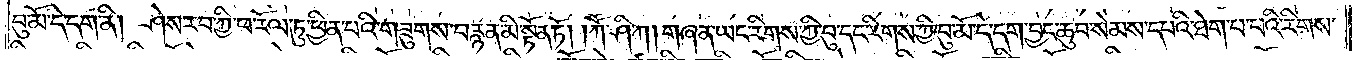བུ་མོ་དེ་དག་ནི། ཤེས་རབ་ཀྱི་ཕ་རོལ་ཏུ་ཕྱིན་པའི་གཟུགས་བརྙན་མི་སྟོན་ཏོ། །ཀཽ་ཤི་ཀ། གཞན་ཡང་རིགས་ཀྱི་བུ་དང་རིགས་ཀྱི་བུ་མོ་དེ་དག་བྱང་ཆུབ་སེམས་དཔའི་ཐེག་པ་པའི་རིགས་
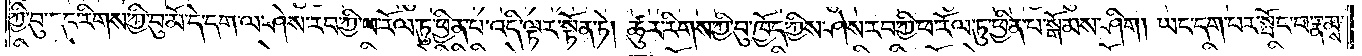ཀྱི་བུ་དང་རིགས་ཀྱི་བུ་མོ་དེ་དག་ལ་ཤེས་རབ་ཀྱི་ཕ་རོལ་ཏུ་ཕྱིན་པ་འདི་ལྟར་སྟོན་ཏེ། ཚུར་རིགས་ཀྱི་བུ་ཁྱོད་ཀྱིས་ཤེས་རབ་ཀྱི་ཕ་རོལ་ཏུ་ཕྱིན་པ་སྒོམས་ཤིག །ཡང་དག་པར་སྤོང་བ་རྣམས་
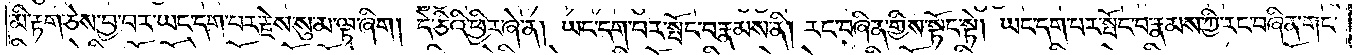མི་རྟག་ཅེས་བྱ་བར་ཡང་དག་པར་རྗེས་སུ་མ་ལྟ་ཞིག །དེ་ཅིའི་ཕྱིར་ཞེ་ན། ཡང་དག་པར་སྤོང་བ་རྣམས་ནི། རང་བཞིན་གྱིས་སྟོང་སྟེ། ཡང་དག་པར་སྤོང་བ་རྣམས་ཀྱི་རང་བཞིན་གང་
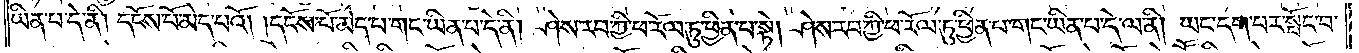ཡིན་པ་དེ་ནི། དངོས་པོ་མེད་པའོ། །དངོས་པོ་མེད་པ་གང་ཡིན་པ་དེ་ནི། ཤེས་རབ་ཀྱི་ཕ་རོལ་ཏུ་ཕྱིན་པ་སྟེ། ཤེས་རབ་ཀྱི་ཕ་རོལ་ཏུ་ཕྱིན་པ་གང་ཡིན་པ་དེ་ལ་ནི། ཡང་དག་པར་སྤོང་བ་
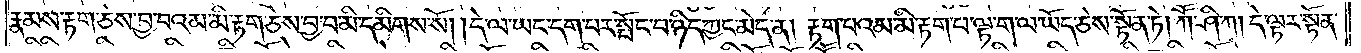རྣམས་རྟག་ཅེས་བྱ་བའམ་མི་རྟག་ཅེས་བྱ་བ་མི་དམིགས་སོ། །དེ་ལ་ཡང་དག་པར་སྤོང་བ་ཉིད་ཀྱང་མེད་ན། རྟག་པའམ་མི་རྟག་པ་ལྟ་ག་ལ་ཡོད་ཅེས་སྟོན་ཏེ། ཀཽ་ཤི་ཀ། དེ་ལྟར་སྟོན་
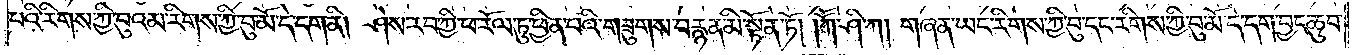པའི་རིགས་ཀྱི་བུ་འམ་རིགས་ཀྱི་བུ་མོ་དེ་དག་ནི། ཤེས་རབ་ཀྱི་ཕ་རོལ་ཏུ་ཕྱིན་པའི་གཟུགས་བརྙན་མི་སྟོན་ཏོ། །ཀཽ་ཤི་ཀ། གཞན་ཡང་རིགས་ཀྱི་བུ་དང་རིགས་ཀྱི་བུ་མོ་དེ་དག་བྱང་ཆུབ་
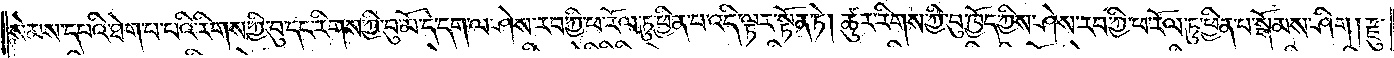སེམས་དཔའི་ཐེག་པ་པའི་རིགས་ཀྱི་བུ་དང་རིགས་ཀྱི་བུ་མོ་དེ་དག་ལ་ཤེས་རབ་ཀྱི་ཕ་རོལ་ཏུ་ཕྱིན་པ་འདི་ལྟར་སྟོན་ཏེ། ཚུར་རིགས་ཀྱི་བུ་ཁྱོད་ཀྱིས་ཤེས་རབ་ཀྱི་ཕ་རོལ་ཏུ་ཕྱིན་པ་སྒོམས་ཤིག །རྫུ་
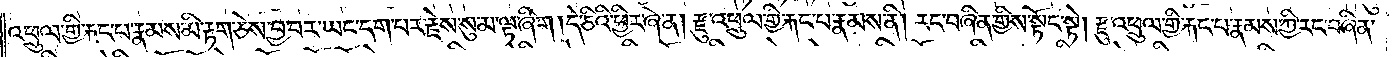འཕྲུལ་གྱི་རྐང་པ་རྣམས་མི་རྟག་ཅེས་བྱ་བར་ཡང་དག་པར་རྗེས་སུ་མ་ལྟ་ཞིག །དེ་ཅིའི་ཕྱིར་ཞེ་ན། རྫུ་འཕྲུལ་གྱི་རྐང་པ་རྣམས་ནི། རང་བཞིན་གྱིས་སྟོང་སྟེ། རྫུ་འཕྲུལ་གྱི་རྐང་པ་རྣམས་ཀྱི་རང་བཞིན་
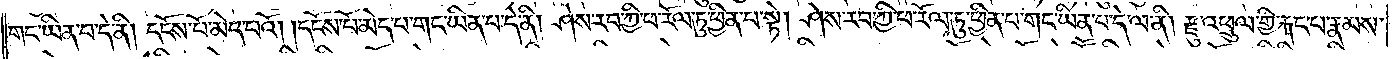གང་ཡིན་པ་དེ་ནི། དངོས་པོ་མེད་པའོ། །དངོས་པོ་མེད་པ་གང་ཡིན་པ་དེ་ནི། ཤེས་རབ་ཀྱི་ཕ་རོལ་ཏུ་ཕྱིན་པ་སྟེ། ཤེས་རབ་ཀྱི་ཕ་རོལ་ཏུ་ཕྱིན་པ་ཡང་ཡིན་པ་དེ་ལ་ནི། རྫུ་འཕྲུལ་གྱི་རྐང་པ་རྣམས་
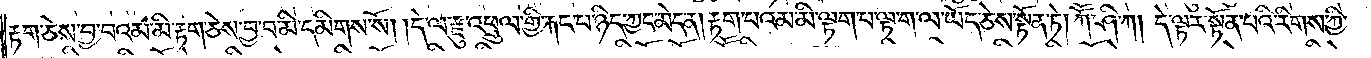རྟག་ཅེས་བྱ་བའམ་མི་རྟག་ཅེས་བྱ་བ་མི་དམིགས་སོ། །དེ་ལ་རྫུ་འཕྲུལ་གྱི་རྐང་པ་ཉིད་ཀྱང་མེད་ན། རྟག་པའམ་མི་རྟག་པ་ལྟ་ག་ལ་ཡོད་ཅེས་སྟོན་ཏེ། ཀཽ་ཤི་ཀ། དེ་ལྟར་སྟོན་པའི་རིགས་ཀྱི་
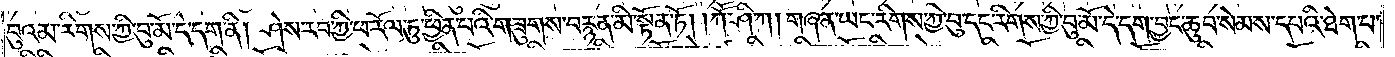བུའམ་རིགས་ཀྱི་བུ་མོ་དེ་དག་ནི། ཤེས་རབ་ཀྱི་ཕ་རོལ་ཏུ་ཕྱིན་པའོ་གཟུགས་བརྙན་མི་སྟོན་ཏོ། །ཀཽ་ཤི་ཀ། གཞན་ཡང་རིགས་ཀྱི་བུ་དང་རིགས་ཀྱི་བུ་མོ་དེ་དག་བྱང་ཆུབ་སེམས་དཔའི་ཐེག་པ་
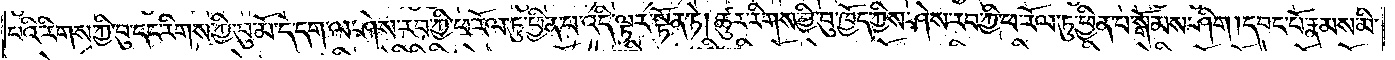པའི་རིགས་ཀྱི་བུ་དང་རིགས་ཀྱི་བུ་མོ་དེ་དག་ལ་ཤེས་རབ་ཀྱི་ཕ་རོལ་ཏུ་ཕྱིན་པ་འདི་ལྟར་སྟོན་ཏེ། ཚུར་རིགས་ཀྱི་བུ་ཁྱོད་ཀྱིས་ཤེས་རབ་ཀྱི་ཕ་རོལ་ཏུ་ཕྱིན་པ་སྒོམས་ཤིག །དབང་པོ་རྣམས་མི་
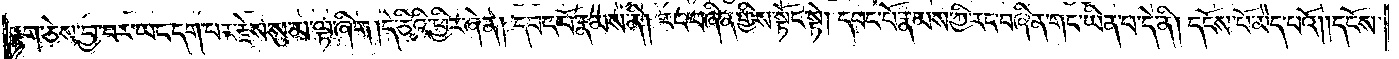རྟག་ཅེས་བྱ་བར་ཡང་དག་པར་རྗེས་སུ་མ་ལྟ་ཞིག །དེ་ཅིའི་ཕྱིར་ཞེ་ན། དབང་པོ་རྣམས་ནི། རང་བཞིན་གྱིས་སྟོང་སྟེ། དབང་པོ་རྣམས་ཀྱི་རང་བཞིན་གང་ཡིན་པ་དེ་ནི། དངོས་པོ་མེད་པའོ། །དངོས་
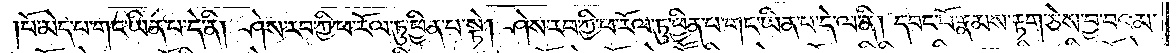པོ་མེད་པ་གང་ཡིན་པ་དེ་ནི། ཤེས་རབ་ཀྱི་ཕ་རོལ་ཏུ་ཕྱིན་པ་སྟེ། ཤེས་རབ་ཀྱི་ཕ་རོལ་ཏུ་ཕྱིན་པ་གང་ཡིན་པ་དེ་ལ་ནི། དབང་པོ་རྣམས་རྟག་ཅེས་བྱ་བའམ་
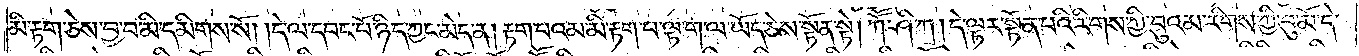མི་རྟག་ཅེས་བྱ་བ་མི་དམིགས་སོ། །དེ་ལ་དབང་པོ་ཉིད་ཀྱང་མེད་ན། རྟག་པའམ་མི་རྟག་པ་ལྟ་ག་ལ་ཡོད་ཅེས་སྟོན་ཏེ། །ཀཽ་ཤི་ཀ། དེ་ལྟར་སྟོན་པའི་རིགས་ཀྱི་བུའམ་རིགས་ཀྱི་བུ་མོ་དེ་
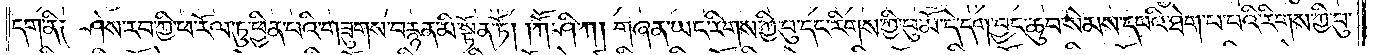དག་ནི༑ ཤེས་རབ་ཀྱི་ཕ་རོལ་ཏུ་ཕྱིན་པའི་གཟུགས་བརྙན་མི་སྟོན་ཏོ། །ཀཽ་ཤི་ཀ། གཞན་ཡང་རིགས་ཀྱི་བུ་དང་རིགས་ཀྱི་བུ་མོ་དེ་དག་བྱང་ཆུབ་སེམས་དཔའི་ཐེག་པ་པའི་རིགས་ཀྱི་བུ་
